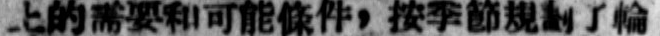上的需要和可能條件，按季節規劃了輪
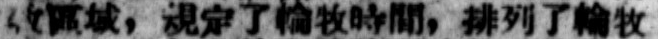牧區域，規定了輪牧時間，排列了輪牧
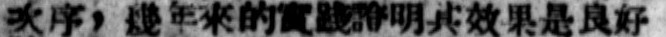次序，幾年來的實踐證明其效果是良好
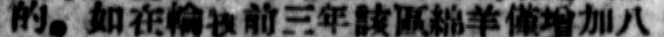的。如在輪牧前三年該區綿羊僅增加八
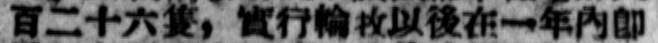百二十六隻，實行輪牧以後在一年內卽
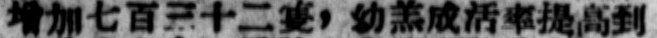增加七百三十二隻，幼羔成活率提高到
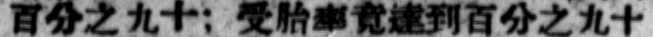百分之九十；受胎率竟達到百分之九十
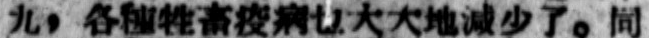九，各種牲畜疫病也大大地減少了。同
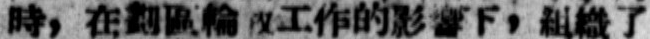時，在劃區輪牧工作的影響下，組織了
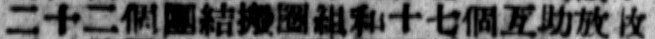二十二個團結援團組和十七個互助放牧
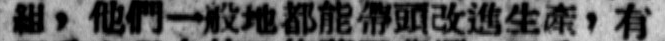組，他們一般地都能帶頭改進生產，有
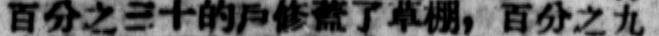百分之三十的戶修葺了草棚，百分之九
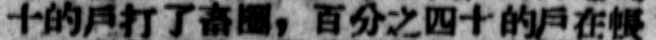十的戶打了畜圈，百分之四十的戶在帳
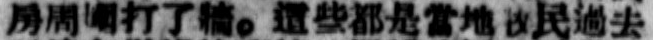房周圍打了牆。這些都是當地牧民過去
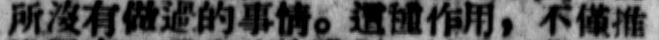所沒有做過的事情。這種作用，不僅推
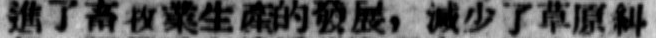進了畜牧業生產的發展，減少了草原糾
